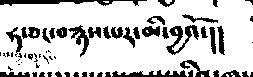ཧ་ཅང་བརྙས་པར་མི་བྱའོ་།།
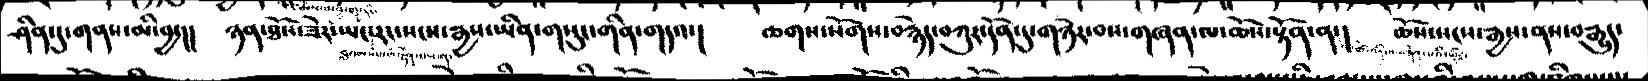ཤིན་དུ་གནས་མི་བྱ་།།  ཉན་ཐོས་ཟེར་ཡང་རང་སངས་རྒྱས་ཡིན་གསུང་གིན་གདའ་།  ཆགས་སོགས་བརྙེད་བཀུར་དོན་དུ་གཉེར་བས་གཞན་ལ་ཆོས་སྟོན་ན་།  ཆོས་སངས་རྒྱས་ནས་བརྒྱུད་
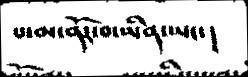པ་མ་ནོར་བ་ཡིན་ཡང་།
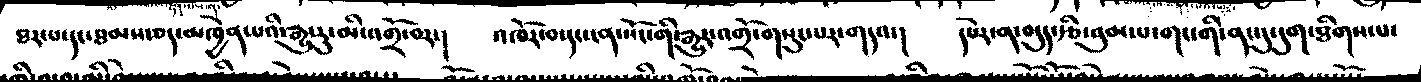ཐར་པ་དང་ཐམས་ཅད་མཁྱེན་པའི་རྒྱུ་རུ་མི་འགྲོ་བར་།  འཁོར་བ་དང་ན་སོང་གི་རྒྱུར་འགྲོ་གསུངས་པར་གདའ་།  དཔེར་ན་བདུད་རྩི་བུམ་པ་གང་གི་ནང་དུ་དུག་ཐིགས་པ་
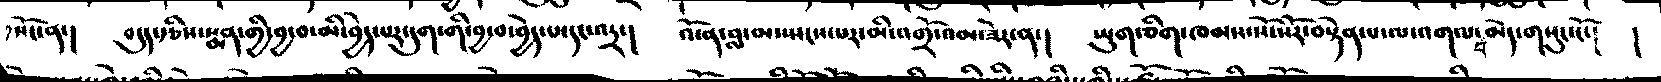སོང་ན་།  བདུད་རྩིས་སྨན་གྱི་བྱ་བ་མི་བྱེད་པར་དུག་གི་བྱ་བ་བྱེད་པ་དང་འདྲ་།  འོ་ན་བླ་མ་སྤངས་པར་མི་འགྲོ་འམ་ཟེར་ན་།  ཡུག་ཅིག་ཁམས་སོ་སོར་བསྟེན་པ་ལ་འགལ་བ་མེད་གསུང་ངོ་།  །
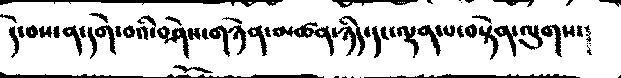དེ་བས་ན་དགེ་བའི་བཤེས་གཉེན་མཚན་ཉིད་དང་ལྡན་པ་བསྟེན་ལུགས་།
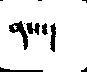ནས་།
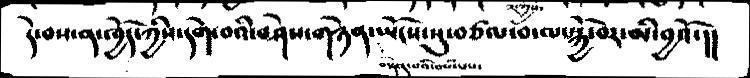དེ་བས་ན་ཁྱོད་ཀྱིས་དགེ་བའི་བཤེས་གཉེན་བསྟེན་པའི་བསཾ་པས་ཡོངས་སུ་བཙལ་བ་ལ་སྐྱེ་བོར་མི་བྱའོ་།།
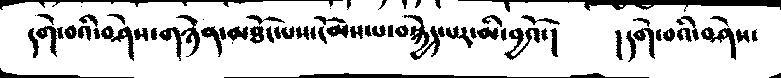དགེ་བའི་བཤེས་གཉེན་མཐོང་པས་ངོམས་པ་བསྐྱེད་པར་མི་བྱའོ་།  །དགེ་བའི་བཤེས་
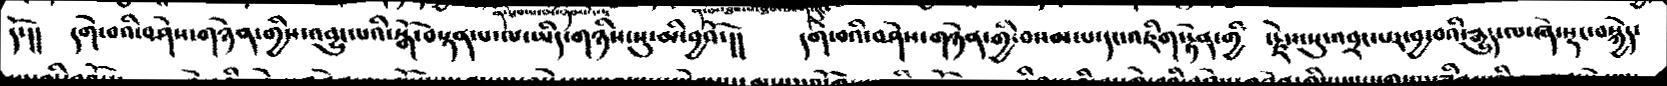དོ་།།  དགེ་བའི་བཤེས་གཉེན་གྱིས་འབྱུང་པའི་སྒོ་བསྟན་པ་ལ་ཡིད་གཉིས་སུ་མི་བྱའོ་།།  དགེ་བའི་བཤེས་གཉེན་གྱི་བསམ་པ་དང་འཇིག་རྟེན་གྱི  ་རྗེས་སུ་འབྲང་པར་བྱ་བའི་རྒྱུད་ལ་ཞེ་སྡང་བསྐྱེད་
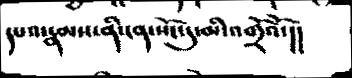དཔའ་རྣམས་ནི་ངན་སོང་དུ་མི་འགྲོའོ་།།
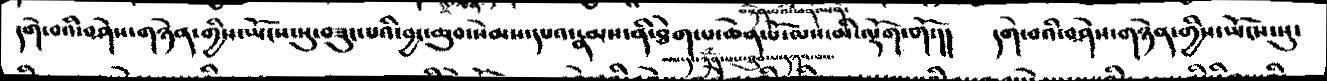དགེ་བའི་བཤེས་གཉེན་གྱིས་ཡོངས་སུ་བཟུང་པའི་བྱང་ཆུབ་སེམས་དཔའ་རྣམས་ནི་ཐེག་པ་ཆེན་པོ་ལས་མི་ལྡོག་གོ་།།  དགེ་བའི་བཤེས་གཉེན་གྱིས་ཡོངས་སུ་
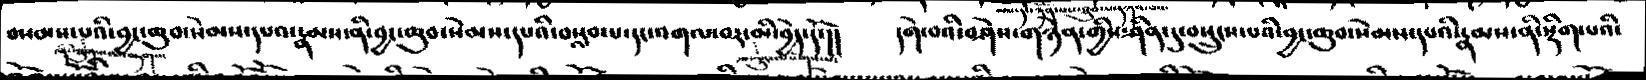བསམས་པའི་བྱང་ཆུབ་སེམས་དཔའ་རྣམས་ནི་བྱང་ཆུབ་སེམས་དཔའི་བསླབ་པ་དང་འགལ་བར་མི་བྱེད་དོ་།།  དགེ་བའི་བཤེས་གཉེན་གྱིས་ཤིན་དུ་བསྲུངས་པའི་བྱང་ཆུབ་སེམས་དཔའི་རྣམས་ནི་སྡིག་པའི་
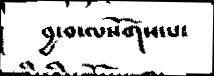བྱ་བ་ལསོགས་པ་
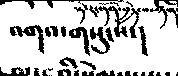འགའ་གསུངས་།
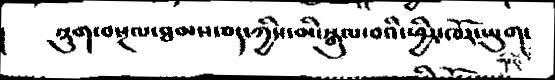སྡུག་བསྔལ་ཐམས་ཅད་ཀྱིས་མི་སྒུལ་བའི་ཕྱིར་ཁོར་ཡུག་
